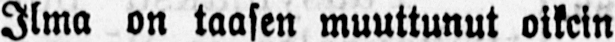Ilma on taasen muuttunut oikein
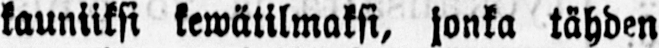kauniiksi kewätilmaksi, jonka tähden
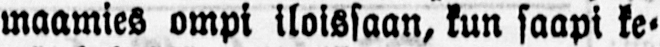maamies ompi iloissaan, kun saapi ke-
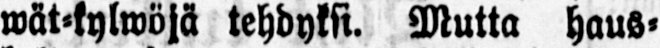wät-kylwöjä tehdyksi. Mutta haus-
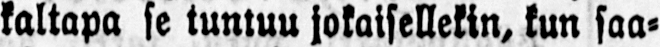kaltapa se tuntuu jokaisellekin, kun saa-
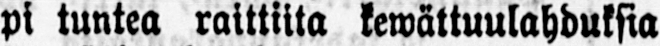pi tuntea raittiita kewättuulahduksia
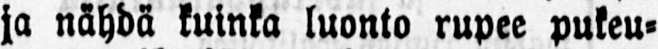ja nähdä kuinka luonto rupee pukeu-
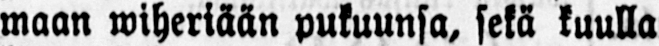maan wiheriään pukuunsa, sekä kuulla
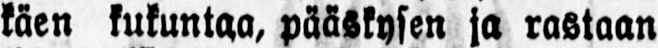käen kukuntaa, pääskysen ja rastaan
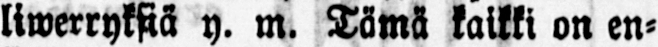liwerryksiä y. m. Tämä kaikki on en-
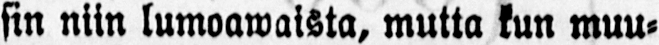sin niin lumoawaista, mutta kun muu-
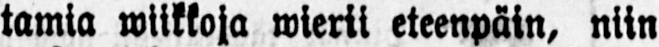tamia wiikkoja wierii eteenpäin, niin
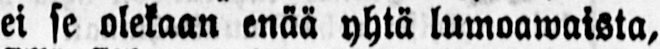ei se olekaan enää yhtä lumoawaista,
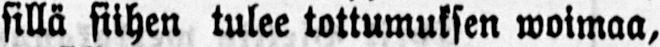sillä siihen tulee tottumuksen woimaa,
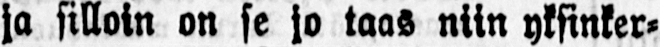ja silloin on se jo taas niin yksinker-
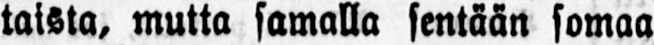taista, mutta samalla sentään somaa
